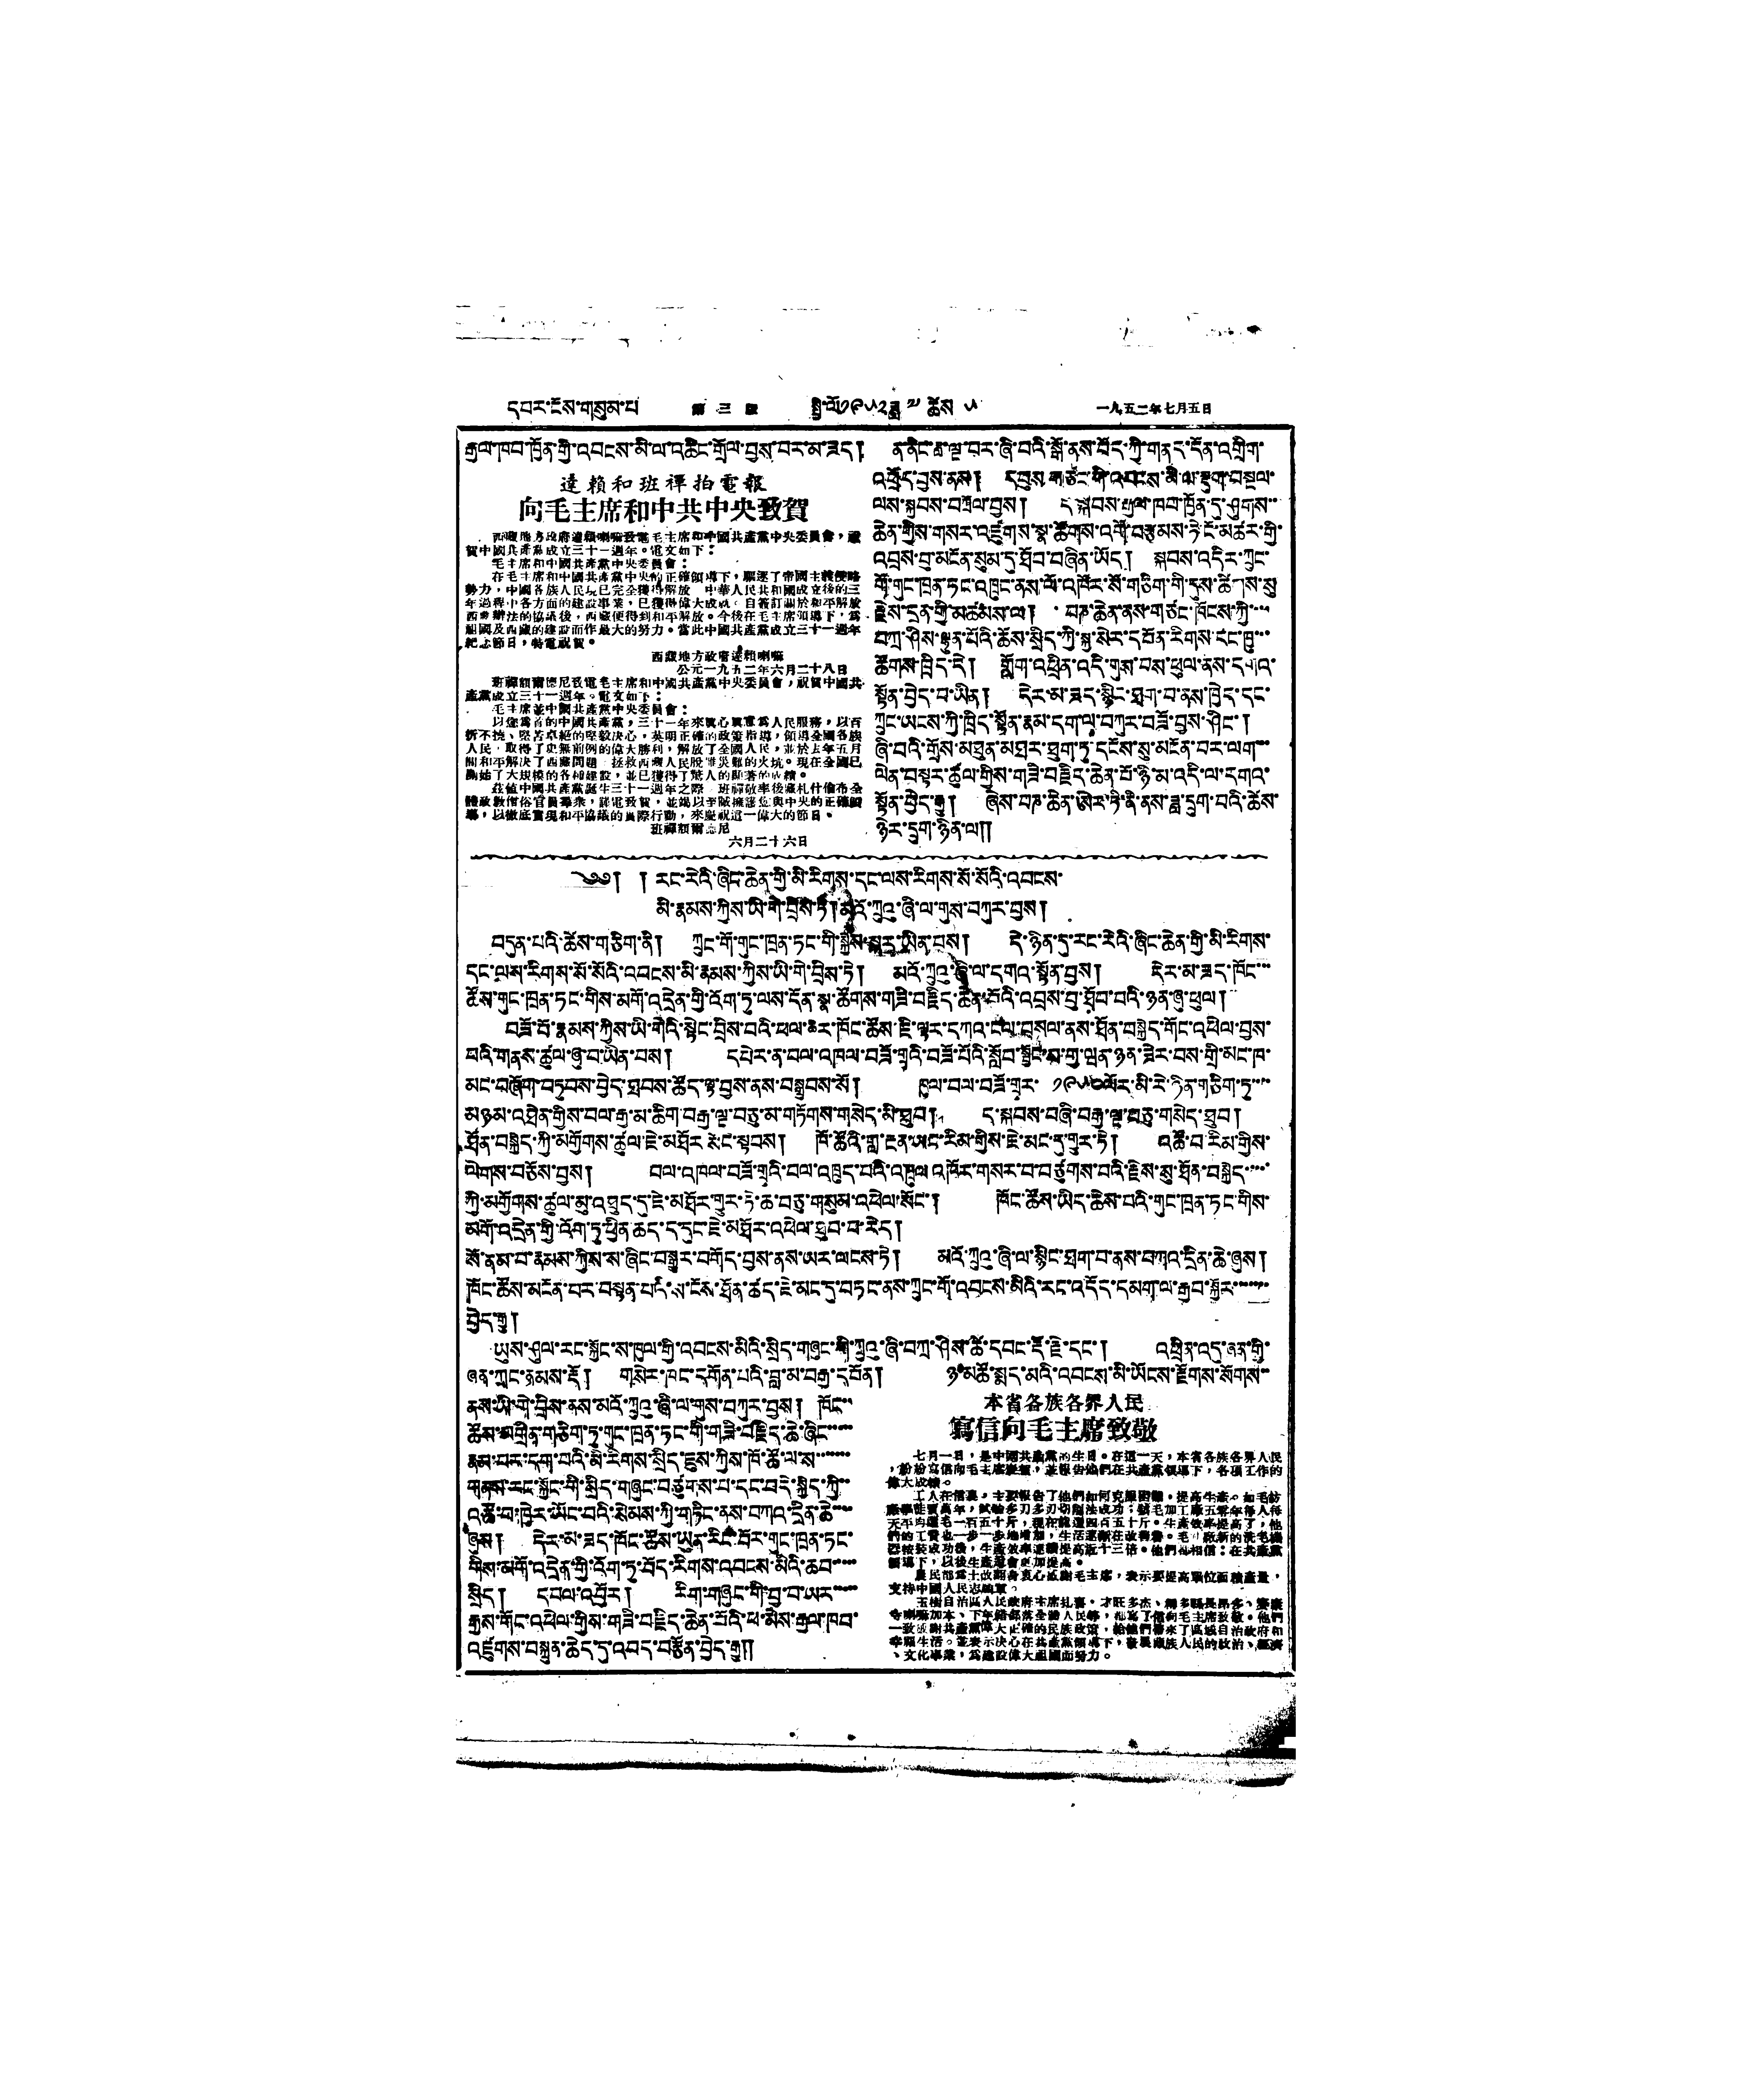དཔར་ངོས་གསུམ་པ 第三版 སྤྱི་ལོ༡༩༥༢ཟླ ༧ ཚེས ༥ 一九五二年七月五日
རྒྱལ་ཁབ་ཁྱོན་འབངས་མི་ལ་འཆིང་གྲོལ་བྱས་པར་མ་ཟད།
達賴和班禪拍電報
向毛主席和中共中央致賀
西藏地方政府達賴喇嘛致電毛主席和中國共產黨中央委員會，祝
賀中國共產黨成立三十一週年。電文如下：
毛主席和中國共產黨中央委員會：
在毛主席和中國共產黨中央的正確領導下，驅逐了帝國主義侵略
勢力，中國各族人民現已完全獲得解放。中華人民共和國成立後的三
年過程中各方面的建設事業，已獲得偉大成就。自簽訂關於和平解放
西藏辦法的協議後，西藏便得到和平解放。今後在毛主席領導下，爲
祖國及西藏的建設而作最大的努力。當此中國共產黨成立三十一週年
紀念節日，特電祝賀。
西藏地方政府達賴喇嘛
公元一九五二年六月二十八日
班禪額爾德尼致電毛主席和中國共產黨中央委員會，祝賀中國共
產黨成立三十一週年，電文如下：
毛主席並中國共產黨中央委員會：
以您爲首的中國共產黨，三十一年來眞心眞意爲人民服務，以百
折不撓、艱苦卓絕的建議決心，英明正確的政策指导，領導全國各族
人民，取得了史無前例的偉大勝利，解放了全國人民，並於去年五月
間和平解決了西藏問題，拯救西藏人民脫離災難的火坑。現在全國已
開始了大規模的各種建設，並已獲得了驚人的顯著的成績。
茲値中國共產黨誕生三十一週年之際，班禪敬率後藏札什倫布全
體政教僧俗官員羣衆，謹電致賀，並竭以至誠擁護您與中央的正確領
導，以徹底實現和平協議的實際行動，來慶祝這一偉大的節日。
班禪額爾德尼
六月二十六日
ན་ནིང་ཟླ་ལྔ་བར་ཞི་བའི་སྒོ་ནས་བོད་ཀྱི་གནད་དོན་འགྲིག་
འཕྲོད་བྱས་ནས། དབུས གཙང་གི་འབངས་མི་ལ་སྡུག་བསྔལ་
ལས་སྐྱབས་བཀྲོལ་བྱས། དེ་སྐབས་རྒྱལ་ཁབ་ཁྱོན་དུ་ཤུགས་་
ཆེན་གྱིས་གསར་འཛུགས་སྣ་ཚོགས་འགོ་བརྩམས་ཏེ་ངོ་མཚར་གྱི་
འབྲས་བུ་མངོན་སུམ་དུ་ཐོབ་བཞིན་ཡོད། སྐབས་འདིར་ཀྲུང་
གོ་གུང་ཁྲན་ཏང་འཁྲུང་ནས་ལོ་འཁོར་སོ་གཅིག་གི་དུས་ཚིགས་སུ
རྗེས་དྲན་གྱི་མཚམས་ལ། པཎ་ཆེན་ནས་གཙང་ཁོངས་ཀྱི་་་་
བཀྲ་ཤིས་ལྷུན་པོའི་ཆོས་སྲིད་ཀྱི་སྐྱ་སེར་དཔོན་རིགས་དང་ཁྱུ་་་
ཚོགས་ཁྲིད་དེ། གློག་འཕྲིན་འདི་གུས་བས་ཕུལ་ནས་དགའ་
སྟོན་བྱེད་པ་ཡིན། དེར་མ་ཟད་སྙིང་ཐག་བ་ནས་ཁྱེད་དང་
ཀྲུང་ཡངས་ཀྱི་ཁྲིད་སྟོན་རྣམ་དགལ་བཀུར་བཟོ་བྱས་ཤིང་།
ཞི་བའི་གྲོས་མཐུན་མཐར་ཐུག་ཏུ་དངོས་སུ་མངོན་བར་ལག་་་
ལེན་བསྟར་ཚུལ་གྱིས་གཟི་བརྗིད་ཆེན་པོ་ཉི་མ་འདི་ལ་དགའ་
སྟོན་བྱེད་རྒྱུ། ཞེས་པཎ་ཆེན་ཨེར་ཏི་ནི་ནས་ཟླ་དྲུག་པའི་ཚེས་
ཉེར་དྲུག་ཉིན་ལ༎
༄༅། ། རང་རེའི་ཞིང་ཆེན་གྱི་མི་རིགས་དང་ལས་རིགས་སོ་སོའི་འབངས་
མི་རྣམས་ཀྱིས་ཡི་གེ་བྲིས་ཏེ། མའོ་ཀྲུའུ་ཞི་ལ་གུས་བཀུར་བྱས།
བདུན་པའི་ཚེས་གཅིག་ནི། ཀྲུང་གོ་གུང་ཁྲན་ཏང་གི་སྐྱེས་སྐར་ཡིན་པས། དེ་ཉིན་དུ་རང་རེའི་ཞིང་ཆེན་གྱི་མི་རིགས་
དང་ལས་རིགས་སོ་སོའི་འབངས་མི་རྣམས་ཀྱིས་ཡི་གེ་བྲིས་ཏེ། མའོ་ཀྲུའུ་ཞི་ལ་དགའ་སྟོན་བྱས། དེར་མ་ཟད་ཁོང་་་
ཚོས་གུང་ཁྲན་ཏང་གིས་མགོ་འདྲེན་གྱི་འོག་ཏུ་ལས་དོན་སྣ་ཚོགས་གཟི་བརྗིད་ཚན་པོའི་འབྲས་བུ་ཐོབ་པའི་ཉན་ཞུ་ཕུལ།
བཟོ་པོ་རྣམས་ཀྱིས་ཡི་གེའི་སྟེང་བྲིས་པའི་ཕལ་ཆེར་ཁོང་ཚོས་རཇི་ལྟར་དཀའ་ངལ་བསལ་ནས་ཐོན་བསྐྱེད་གོང་འཕེལ་བྱས་
པའི་གནས་ཚུལ་ཞུ་བ་ཡིན་པས། དཔེར་ན་བལ་འཁལ་བཟོ་གྲྭའི་བཟོ་པོའི་སློབ་སྦྱོང་བ་གྱ་ཝན་ཉན་ཟེར་བས་གྲི་མང་ཁ་
མང་བཞོག་བཏབས་བྱེད་ཐབས་ཚོད་ལྟ་བྱས་ནས་བསྒྲུབས་སོ། ཁུལ་བལ་བཟོ་གྲྭར་ ༡༩༥༠ལོར་མི་རེ་ཉིན་གཅིག་ཏུ་་་་
མཉམ་འཐེན་གྱིས་བལ་རྒྱ་མ་ཆིག་བརྒྱ་ལྔ་བཅུ་མ་གཏོགས་གསེད་མི་ཐུབ། ད་སྐབས་བཞི་བརྒྱ་ལྔ་བཅུ་གསེད་ཐུབ།
ཐོན་བསྐྱིད་ཀྱི་མགྱོགས་ཚུལ་ཇེ་མཐོར སོང་སྟབས། ཁོ་ཚོའི་གླ་རྔན་ཡང་རིམ་གྱིས་ཇེ་མང་དུ་གྱུར་ཏེ། འཚོ་བ་རིམ་གྱིས་
ལེགས་བཅོས་བྱས། བལ་འཁལ་བཟོ་གྲྭའི་བལ་འཁྲུད་པའི་འཁྲུལ འཁོར་གསར་བ་བཙུགས་པའི་རྗེས་སུ་ཐོན་བསྐྱེད་་་་་
ཀྱི་མགྱོགས་ཚུལ་མུ་འཐུད་དུ་ཇེ་མཐོར་གྱུར་ཏེ་ཆ་བཅུ་གསུམ་འཕེལ་སོང་། ཁོང་ཚོས་ཡིད་ཆེས་པའི་གུང་ཁྲན་ཏང་གིས་
མགོ་འདྲེན་གྱི་འོག་ཏུ་ཕྱིན་ཆད་ད་དུང་ཇེ་མཐོར་འཕེལ་ཐུབ་པ་རེད།
སོ་ནམ་པ་རྣམས་ཀྱིས་ས་ཞིང་བསྒྱུར་བགོད་བྱས་ནས་ཡར་ལངས་ཏེ། མའོ་ཀྲུའུ་ཞི་ལ་སྙིང་ཐག་བ་ནས་བཀའ་དྲིན་ཆེ་ཞུས།
ཁོང་ཚོས་མངོན་པར་བསྟན་པའི་ས་ངོས་ཐོན་ཚད་ཇེ་མང་དུ་བཏང་ནས་ཀྲུང་གོ་འབངས་མིའི་རང་འདོད་དམག་ལ་རྒྱབ་སྐྱོར་་་་་་་་
བྱེད་རྒྱུ།
ཡུས་ཤུལ་རང་སྐྱོང་ས་ཁུལ་གྱི་འབངས་མིའི་སྲིད་གཞུང་གི་ཀྲུའུ་ཞི་བཀྲ་ཤིས་ཚེ་དབང་རྡོ་རྗེ་དང་། འཕྲིན་འདུ་ཞན་གྱི་
ཞན་ཀྲང་ནམས་རྡོ། གསེར་ཁང་དགོན་པའི་བླ་མ་བརྒྱ་དཔོན། ཉ་མཚོ་སྨད་མའི་འབངས་མི་ཡོངས་རྫོགས་སོགས་་
ནས་ཡི་གེ་བྲིས་ནས་མའོ་ཀྲུའུ་ཞི་ལ་གུས་བཀུར་བྱས། ཁོང་་
ཚོས་མགྲིན་གཅིག་ཏུ་གུང་ཁྲན་ཏང་གི་གཟི་བརྗིད་ཆེ་ཞིང་་་་་
རྣམ་པར་དག་པའི་མི་རིགས་སྲིད་ཇུས་ཀྱིས་ཁོ་ཚོ་ལ་ས་་་་་་་
གནས་རང་སྐྱོང་གི་སྲིད་གཞུང་བཙུགས་པ་དང་བདེ་སྐྱིད་ཀྱི་་
འཚོ་བ་ཁྱེར་ཡོང་བའི་སེམས་ཀྱི་གཏིང་ནས་བཀའ་དྲིན་ཆེ་་་་
ཞུས། དེར་མ་ཟད་ཁོང་ཚོས་ཡུན་རིང་པོར་གུང་ཁྲན་ཏང་
གིས་མགོ་འདྲེན་གྱི་འོག་ཏུ་བོད་རིགས་འབངས་མིའི་ཆབ་་་་
སྲེད། དཔལ་འབྱོར། རིག་གཞུང་གི་བྱ་བ་ཡར་་་་་་
རྒྱས་གོང་འཕེལ་གྱིས་གཟི་བརྗིད་ཆེན་པོའི་ཕ་མེས་རྒྱལ་ཁབ་
འཛུགས་བསྐྲུན་ཆེད་དུ་འབད་བརྩོན་བྱེད་རྒྱུ།།
本省各族各界人民
寫信向毛主席致敬
七月一日，是中國共產黨的生日。在這一天，本省各族各界人民
，紛紛寫信向毛主席慶賀，並報告他們在共產黨領導下，各項工作的
偉大戰績。
工人在信裏，主要報告了他們如何克服困難，提高生產。如毛紡
廠學徒賈萬年，試驗多刀多刀切削法成功；絨毛加工廠五零年每人每
天平均紡毛一百五十斤，現在就達四百五十斤。生產效率提高了，它
們的工資也一步一步地增加，生活逐漸在改善着。毛紡廠新的洗毛機
器按裝成功後，生產效率連續提高近十三倍。他們都相信：在共產黨
領導下，以後生產還會更加提高。
農民都爲土改翻身衷心感謝毛主席，表示要提高單位面積產量，
支持中國人民志願軍。
玉樹自治區人民政府主席扎喜・才旺多杰、稱多縣長昂多、賽康
寺喇嘛加本、下年錯部落全體人民等，都寫了信向毛主席致敬。他們
一致感謝共產黨偉大正確的民族政策，給他們帶來了區域自治政府和
幸福生活。並表示決心在共產黨領導下，發展藏族人民的政治、經濟
、文化事業，爲建設偉大祖國而努力。
